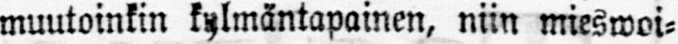muutoinkin kylmäntapainen, niin mieswoi-
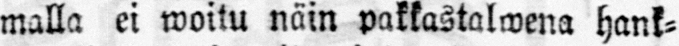malla ei woitu näin pakkastalwena hank-
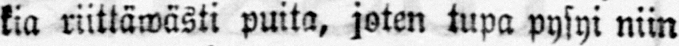kia riittäwästi puita, joten tupa pysyi niin
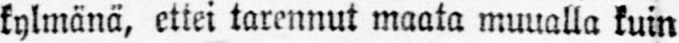kylmänä, ettei tarennut maata muualla kuin
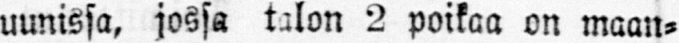uunissa, jossa talon 2 poikaa on maan-
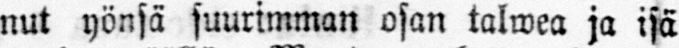nut yönsä suurimman osan talwea ja isä
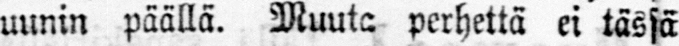uunin päällä. Muuta perhettä ei tässä
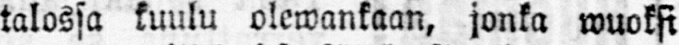talossa kuulu olewankaan, jonka wuoksi
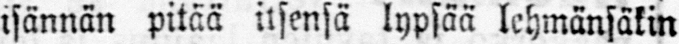isännän pitää itsensä lypsää lehmänsäkin
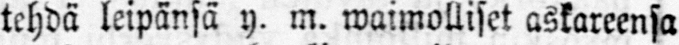tehdä leipänsä y. m. waimolliset askareensa
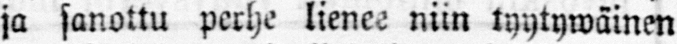ja sanottu perhe lienee niin tyytywäinen
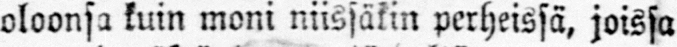oloonsa kuin moni niissäkin perheissä, joissa
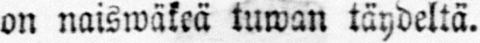on naiswäkeä tuwan täydeltä.
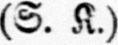(S. K.)
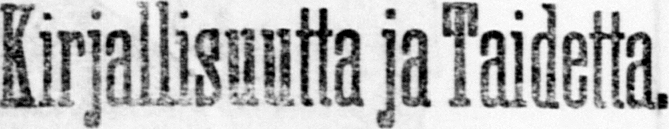Kirjallisuutta ja Taidetta.
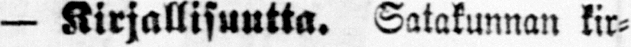— Kirjallisuutta. Satakunnan kir-
